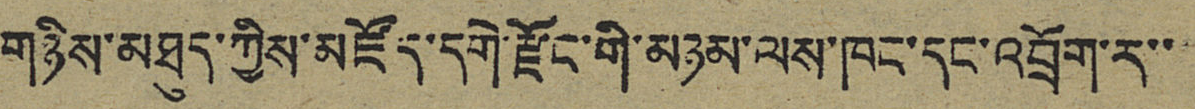གཉིས་མཐུད་ཀྱིས་མཛོད་དགེ་རྫོང་གི་མཉམ་ལས་ཁང་དང་འབྲོག་ར་་
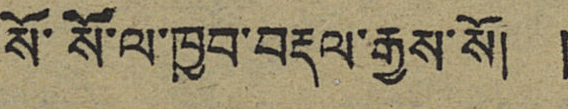སོ་སོ་ལ་ཁྱབ་བརྡལ་རྒྱས་སོ། །
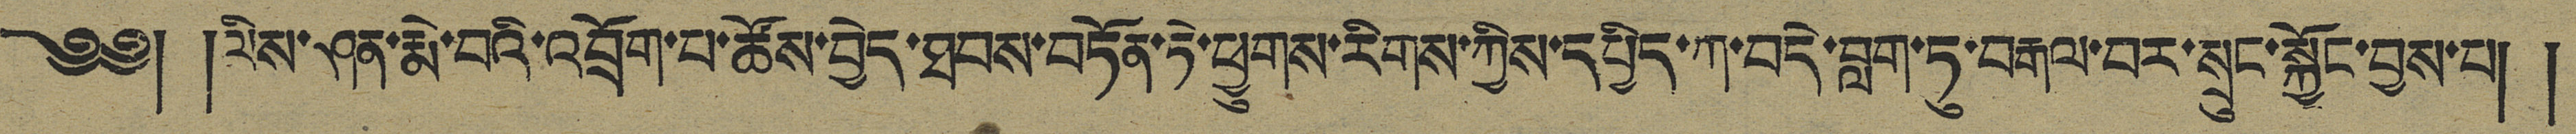༄༅། །ལིས་ཤན་རྨེ་བའི་འབྲོག་པ་ཚོས་བྱེད་ཐབས་བཏོན་ཏེ་ཕྱུགས་རིགས་ཀྱིས་དཔྱིད་ཀ་བདེ་བླག་ཏུ་བརྒལ་བར་སྲུང་སྐྱོང་བྱས་པ། །
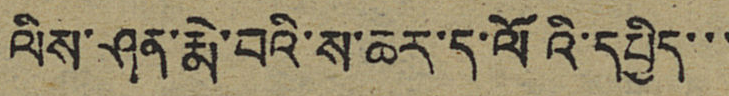ལིས་ཤན་རྨེ་བའི་ས་ཆར་ད་ལོའི་དཔྱིད་་་
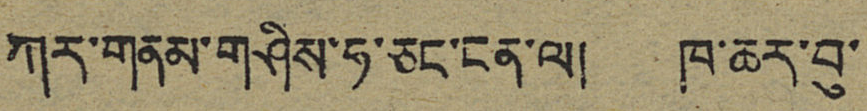ཀར་གནམ་གཤིས་ཧ་ཅང་ངན་ལ། ཁ་ཆར་བུ་
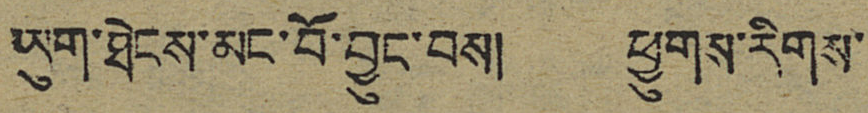ཡུག་ཐེངས་མང་བོ་བྱུང་བས། ཕྱུགས་རིགས་
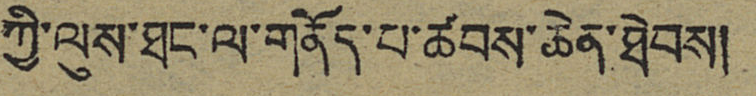ཀྱི་ལུས་ཐང་ལ་གནོད་པ་ཚབས་ཆེན་ཐེབས།
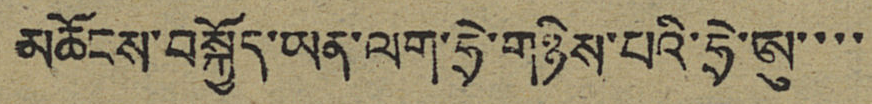མཆོངས་བསྐྱོད་ཡན་ལག་ཧྲེ་གཉིས་པའི་ཧྲེ་ཨུ་་་་
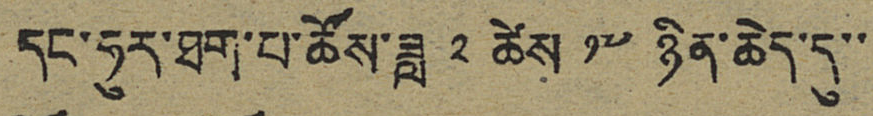དང་ཧུར་ཐག་པ་ཚོས་ཟླ ༢ ཚེས ༡༧ ཉིན་ཆེད་དུ་་
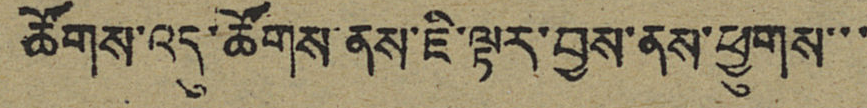ཚོགས་འདུ་ཚོགས་ནས་ཇི་ལྟར་བྱས་ནས་ཕྱུགས་་་
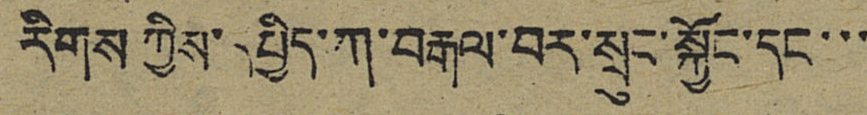རིགས་ཀྱིས་དཔྱིད་ཀ་བརྒལ་བར་སྲུང་སྐྱོང་དང་་་
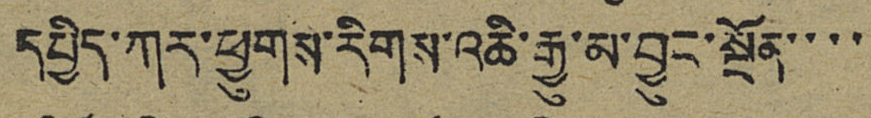དཔྱིད་ཀར་ཕྱུགས་རིགས་འཆི་རྒྱུ་མ་བྱུང་སྔོན་་་་
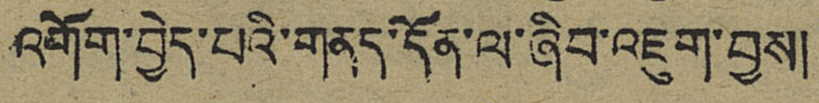འགོག་བྱེད་པའི་གནད་དོན་ལ་ཞིབ་འཇུག་བྱས།
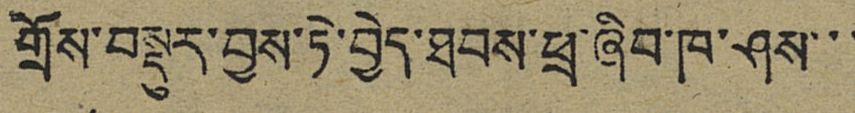གྲོས་བསྡུར་བྱས་ཏེ་བྱེད་ཐབས་ཕྲ་ཞིབ་ཁ་ཤས་་་
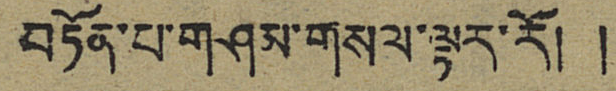བཏོན་པ་གཤམ་གསལ་ལྟར་རོ། །
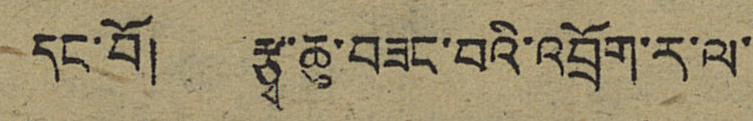དང་བོ། རྩྭ་ཆུ་བཟང་བའི་འབྲོག་ར་ལ་
